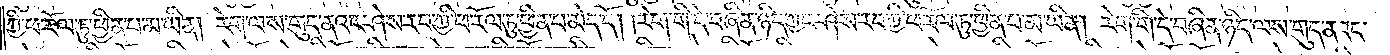ཀྱི་ཕ་རོལ་ཏུ་ཕྱིན་པ་མ་ཡིན། རེག་ལས་གུད་ནའང་ཤེས་རབ་ཀྱི་ཕ་རོལ་ཏུ་ཕྱིན་པ་མེད་དོ། །རེག་གི་དེ་བཞིན་ཉིད་ཀྱང་ཤེས་རབ་ཀྱི་ཕ་རོལ་ཏུ་ཕྱིན་པ་མ་ཡིན། རེག་གི་དེ་བཞིན་ཉིད་ལས་གུད་ནའང་
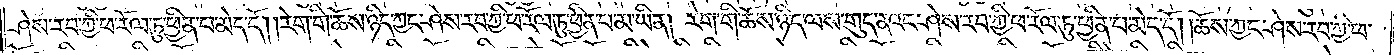ཤེས་རབ་ཀྱི་ཕ་རོལ་ཏུ་ཕྱིན་པ་མེད་དོ། །རེག་གི་ཆོས་ཉིད་ཀྱང་ཤེས་རབ་ཀྱི་ཕ་རོལ་ཏུ་ཕྱིན་པ་མ་ཡིན། རེག་གི་ཆོས་ཉིད་ལས་གུད་ནའང་ཤེས་རབ་ཀྱི་ཕ་རོལ་ཏུ་ཕྱིན་པ་མེད་དོ། །ཆོས་ཀྱང་ཤེས་རབ་ཀྱི་ཕ་
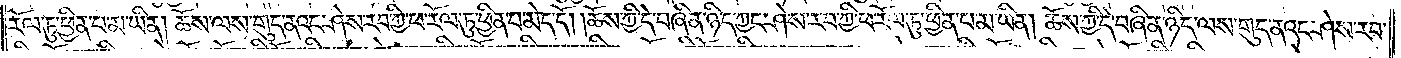རོལ་ཏུ་ཕྱིན་པ་མ་ཡིན། ཆོས་ལས་གུད་ནའང་ཤེས་རབ་ཀྱི་ཕ་རོལ་ཏུ་ཕྱིན་པ་མེད་དོ། །ཆོས་ཀྱི་དེ་བཞིན་ཉིད་ཀྱང་ཤེས་རབ་ཀྱི་ཕ་རོལ་ཏུ་ཕྱིན་པ་མ་ཡིན། ཆོས་ཀྱི་དེ་བཞིན་ཉིད་ལས་གུད་ནའང་ཤེས་རབ་
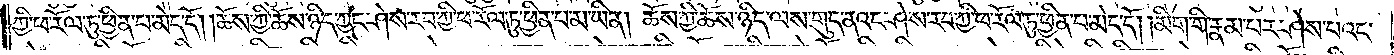ཀྱི་ཕ་རོལ་ཏུ་ཕྱིན་པ་མེད་དོ། །ཆོས་ཀྱི་ཆོས་ཉིད་ཀྱང་ཤེས་རབ་ཀྱི་ཕ་རོལ་ཏུ་ཕྱིན་པ་མ་ཡིན། ཆོས་ཀྱི་ཆོས་ཉིད་ལས་གུད་ནའང་ཤེས་རབ་ཀྱི་ཕ་རོལ་ཏུ་ཕྱིན་པ་མེད་དོ། །མིག་གི་རྣམ་པར་ཤེས་པའང་
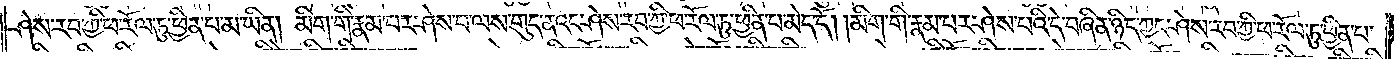ཤེས་རབ་ཀྱི་ཕ་རོལ་ཏུ་ཕྱིན་པ་མ་ཡིན། མིག་གི་རྣམ་པར་ཤེས་པ་ལས་གུད་ནའང་ཤེས་རབ་ཀྱི་ཕ་རོལ་ཏུ་ཕྱིན་པ་མེད་དོ། །མིག་གི་རྣམ་པར་ཤེས་པའི་དེ་བཞིན་ཉིད་ཀྱང་ཤེས་རབ་ཀྱི་ཕ་རོལ་ཏུ་ཕྱིན་པ་
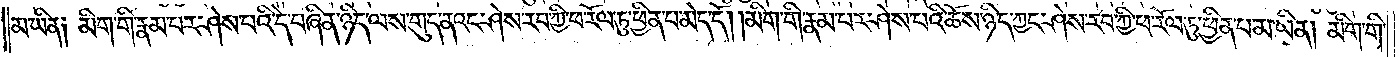མ་ཡིན། མིག་གི་རྣམ་པར་ཤེས་པའི་དེ་བཞིན་ཉིད་ལས་གུད་ནའང་ཤེས་རབ་ཀྱི་ཕ་རོལ་ཏུ་ཕྱིན་པ་མེད་དོ། །མིག་གི་རྣམ་པར་ཤེས་པའི་ཆོས་ཉིད་ཀྱང་ཤེས་རབ་ཀྱི་ཕ་རོལ་ཏུ་ཕྱིན་པ་མ་ཡིན། མིག་གི་
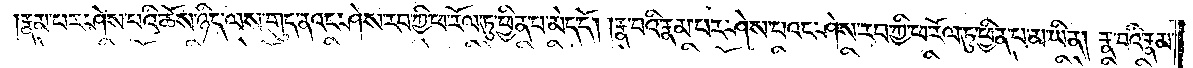རྣམ་པར་ཤེས་པའི་ཆོས་ཉིད་ལས་གུད་ནའང་ཤེས་རབ་ཀྱི་ཕ་རོལ་ཏུ་ཕྱིན་པ་མེད་དོ། །རྣ་བའི་རྣམ་པར་ཤེས་པའང་ཤེས་རབ་ཀྱི་ཕ་རོལ་ཏུ་ཕྱིན་པ་མ་ཡིན། རྣ་བའི་རྣམ་
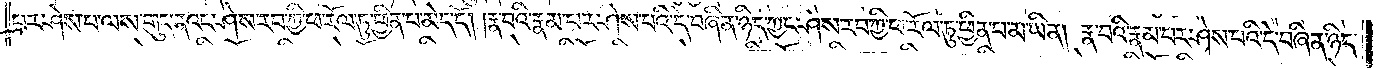པར་ཤེས་པ་ལས་གུད་ནའང་ཤེས་རབ་ཀྱི་ཕ་རོལ་ཏུ་ཕྱིན་པ་མེད་དོ། །རྣ་བའི་རྣམ་པར་ཤེས་པའི་དེ་བཞིན་ཉིད་ཀྱང་ཤེས་རབ་ཀྱི་ཕ་རོལ་ཏུ་ཕྱིན་པ་མ་ཡིན། རྣ་བའི་རྣམ་པར་ཤེས་པའི་དེ་བཞིན་ཉིད་
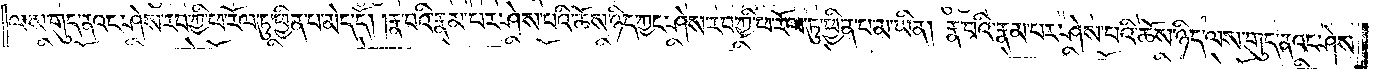ལས་གུད་ནའང་ཤེས་རབ་ཀྱི་ཕ་རོལ་ཏུ་ཕྱིན་པ་མེད་དོ། །རྣ་བའི་རྣམ་པར་ཤེས་པའི་ཆོས་ཉིད་ཀྱང་ཤེས་རབ་ཀྱི་ཕ་རོལ་ཏུ་ཕྱིན་པ་མ་ཡིན། རྣ་བའི་རྣམ་པར་ཤེས་པའི་ཆོས་ཉིད་ལས་གུད་ནའང་ཤེས་
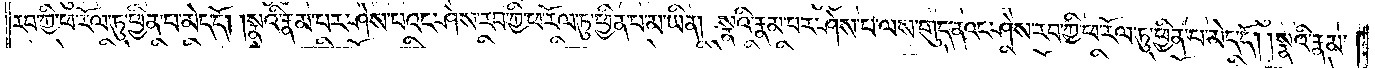རབ་ཀྱི་ཕ་རོལ་ཏུ་ཕྱིན་པ་མེད་དོ། །སྣའི་རྣམ་པར་ཤེས་པའང་ཤེས་རབ་ཀྱི་ཕ་རོལ་ཏུ་ཕྱིན་པ་མ་ཡིན། སྣའི་རྣམ་པར་ཤེས་པ་ལས་གུད་ནའང་ཤེས་རབ་ཀྱི་ཕ་རོལ་ཏུ་ཕྱིན་པ་མེད་དོ། །སྣའི་རྣམ་
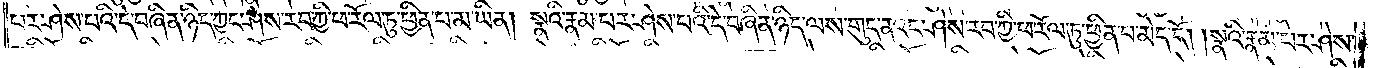པར་ཤེས་པའི་དེ་བཞིན་ཉིད་ཀྱང་ཤེས་རབ་ཀྱི་ཕ་རོལ་ཏུ་ཕྱིན་པ་མ་ཡིན། སྣའི་རྣམ་པར་ཤེས་པའི་དེ་བཞིན་ཉིད་ལས་གུད་ནའང་ཤེས་རབ་ཀྱི་ཕ་རོལ་ཏུ་ཕྱིན་པ་མེད་དོ། །སྣའི་རྣམ་པར་ཤེས་
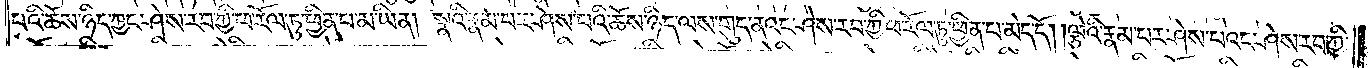པའི་ཆོས་ཉིད་ཀྱང་ཤེས་རབ་ཀྱི་ཕ་རོལ་ཏུ་ཕྱིན་པ་མ་ཡིན། སྣའི་རྣམ་པར་ཤེས་པའི་ཆོས་ཉིད་ལས་གུད་ནའང་ཤེས་རབ་ཀྱི་ཕ་རོལ་ཏུ་ཕྱིན་པ་མེད་དོ། །ལྕེའི་རྣམ་པར་ཤེས་པའང་ཤེས་རབ་ཀྱི་
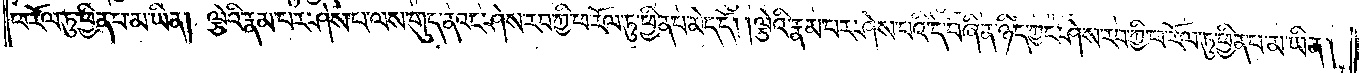ཕ་རོལ་ཏུ་ཕྱིན་པ་མ་ཡིན། ལྕེའི་རྣམ་པར་ཤེས་པ་ལས་གུད་ནའང་ཤེས་རབ་ཀྱི་ཕ་རོལ་ཏུ་ཕྱིན་པ་མེད་དོ། །ལྕེའི་རྣམ་པར་ཤེས་པའི་དེ་བཞིན་ཉིད་ཀྱང་ཤེས་རབ་ཀྱི་ཕ་རོལ་ཏུ་ཕྱིན་པ་མ་ཡིན།
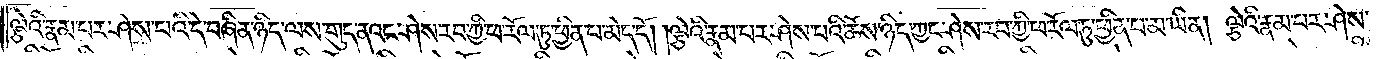ལྕེའི་རྣམ་པར་ཤེས་པའི་དེ་བཞིན་ཉིད་ལས་གུད་ནའང་ཤེས་རབ་ཀྱི་ཕ་རོལ་ཏུ་ཕྱིན་པ་མེད་དོ། །ལྕེའི་རྣམ་པར་ཤེས་པའི་ཆོས་ཉིད་ཀྱང་ཤེས་རབ་ཀྱི་ཕ་རོལ་ཏུ་ཕྱིན་པ་མ་ཡིན། ལྕེའི་རྣམ་པར་ཤེས་
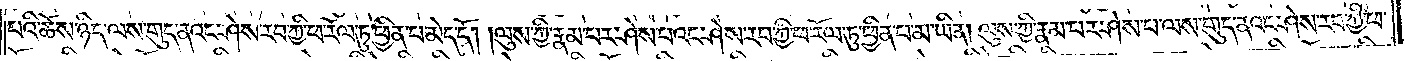པའི་ཆོས་ཉིད་ལས་གུད་ནའང་ཤེས་རབ་ཀྱི་ཕ་རོལ་ཏུ་ཕྱིན་པ་མེད་དོ། །ལུས་ཀྱི་རྣམ་པར་ཤེས་པའང་ཤེས་རབ་ཀྱི་ཕ་རོལ་ཏུ་ཕྱིན་པ་མ་ཡིན། ལུས་ཀྱི་རྣམ་པར་ཤེས་པ་ལས་གུད་ནའང་ཤེས་རབ་ཀྱི་ཕ་
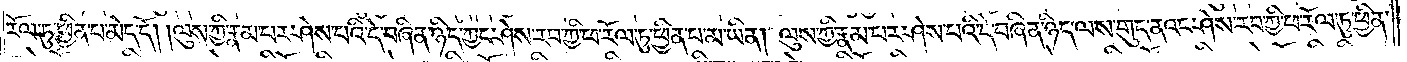རོལ་ཏུ་ཕྱིན་པ་མེད་དོ། །ལུས་ཀྱི་རྣམ་པར་ཤེས་པའི་དེ་བཞིན་ཉིད་ཀྱང་ཤེས་རབ་ཀྱི་ཕ་རོལ་ཏུ་ཕྱིན་པ་མ་ཡིན། ལུས་ཀྱི་རྣམ་པར་ཤེས་པའི་དེ་བཞིན་ཉིད་ལས་གུད་ནའང་ཤེས་རབ་ཀྱི་ཕ་རོལ་ཏུ་ཕྱིན་
